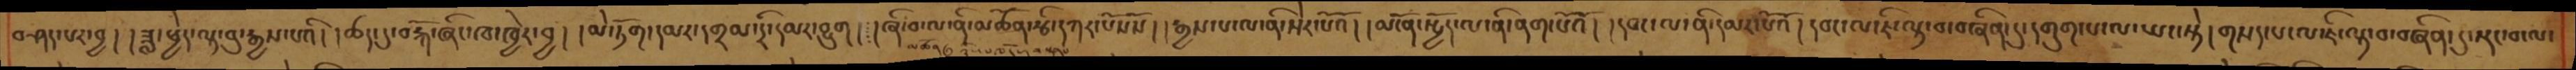བཤད་པར་བྱ། །ཟླ་ཕྱེད་ལྟ་བུ་རྒྱས་པའི། །ཚད་དུ་བརྐོ་ཞིང་ཁ་ཁྱེར་བྱ། །མེ་ཏོག་དམར་དགྲམ་དྲི་དམར་བྱུག། །ཞི་བ་ལ་ནི་མཚོན་རྩི་དཀར་པོསསོ། །རྒྱས་པ་ལ་ནི་སེར་པོའོ། །མངོན་སྤྱོད་ལ་ནི་ནག་པོའོ། །དབང་ལ་ནི་དམར་པོའོ། །དབང་ལ་ཇི་ལྟ་བ་བཞིན་དུ། །དགུག་པ་ལ་ཡང་སྟེ། །གསད་པ་ལ་ཇི་ལྟ་བ་བཞིན་དུ་སྡང་བ་ལ
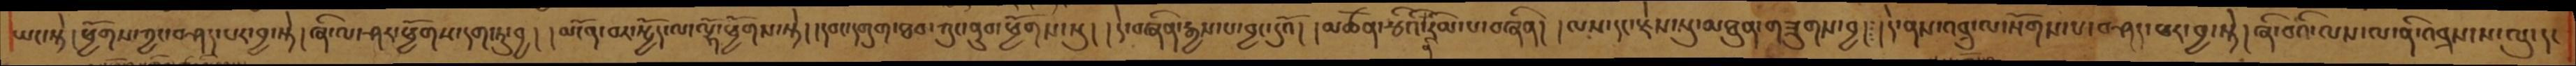ཡང་སྟེ། ཕྱོགས་ཀྱང་བཤད་པར་བྱ་སྟེ། ཞི་ལ་ཤར་ཕྱོགས་དག་ཏུ་བྱ། །མངོན་བར་སྤྱོད་ལ་ལྷོ་ཕྱོགས་སྟེ། །དབང་དགུག་ཐབ་ཀུང་ནུབ་ཕྱོགས་སུ། །དེ་བཞིན་རྒྱས་པ་བྱང་དུའོ། །མཚོན་རྩིའི་ནི་རིམ་པ་བཞིན། །ལས་དང་རྗེས་སུ་མཐུན་གཟུགས་བྱ། །དེ་ནས་འབྲུ་ལ་སོགས་པ་བཤད་པར་བྱ་སྟེ། ཞི་བའི་ལས་ལ་ནི་འབྲས་ས་ལུ་དང
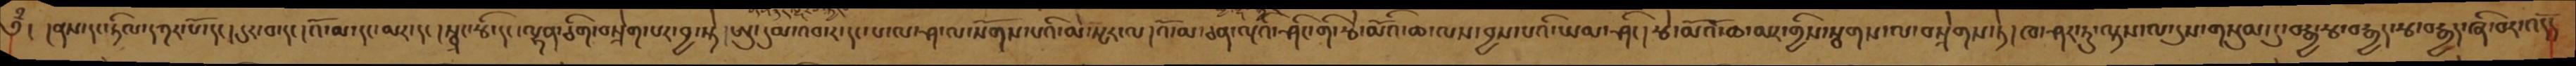༄ྃ། །ནས་དང་ཏིལ་དཀར་པོ་དང། དུར་བ་དང། འོ་མ་དང་མར་དང། སྦྲང་རྩི་དང་ལྷན་ཅིག་བསྲེག་པར་བྱ་སྟེ། ཨུ་དུམ་འབ་ར་དང་པ་ལ་ཤ་ལ་སོགས་པའི་མེ་སྤར་ལ།འོ་མ་ཅན་ལྔའི་ཤིང་གི་རྩེ་མོའི་ཆ་ལས་བྱས་པའི་ཡམ་ཤིང།རྩེ་མོའོ་ཆ་མར་གྱིས་སྦགས་ལ་བསྲེགས་ཏེ། ཁ་ཤར་ཏུ་ལྟས་ལ་དུས་གསུམ་དུ་བརྒྱ་རྩ་བརྒྱད་རྩ་བརྒྱད་ཞི་བར་འདོད
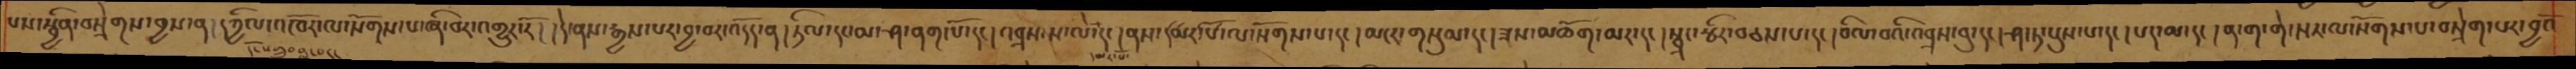པས་སྦྱིན་བསྲེགས་བྱས་ན། དཀྱིལ་འཁོར་ལ་སོགས་པ་ཞི་བར་འགྱུར་རོ། །དེ་ནས་རྒྱས་པར་བྱ་བར་འདོད་ན།ཏིལ་དང་མ་ཤ་ནག་པོ་དང། འབྲས་ས་ལེ་དམར་པོ་དང། ནས་དམར་པོ་ལ་སོགས་པ་དང། མངར་གསུམ་དང། ཟས་མཆོག་མར་དང། སྦྲང་རྩིར་བཅས་པ་དང། བིལ་བའི་འབྲས་བུ་དང། ཤ་ཏ་པུས་པ་དང། པད་མ་དང། ན་ག་གེ་སར་ལ་སོགས་པ་བསྲེག་པར་བྱའོ
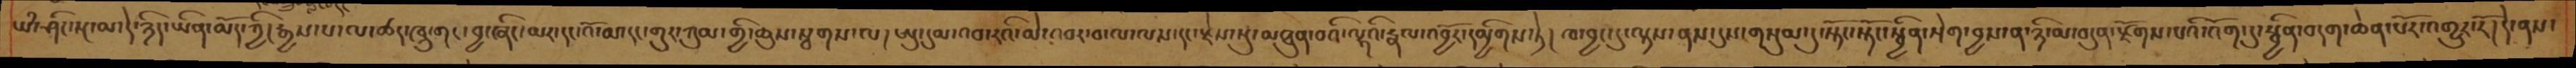ཡཾ་ཤིང་སྔ་མ་དེ་ཉིད་ཡིན་མོད་ཀྱི།རྒྱས་པ་ལ་ཚད་ཁྲུ་གང་བྱ་ཞིང་མར་དང་འོ་མ་དང་གུར་གུམ་གྱི་ཆུས་སྦགས་ལ། ཨུ་དུམ་འབ་རའི་མེ་འབར་བ་ལ་ལས་དང་རྗེས་སུ་མཐུན་བའི་ལྷའི་རྣལ་འབྱོར་དམྱིགས་ཏེ། ཁ་བྱང་དུ་ལྟས་ནས་དུས་གསུམ་དུ་སྟོང་སྟོང་སྦྱིན་སྲེག་བྱས་ན་ཉི་མ་བདུན་རྫོགས་པའི་འོག་དུ་སྦྱིན་བདག་ཆེན་པོར་འགྱུར་རོ། དེ་ནས
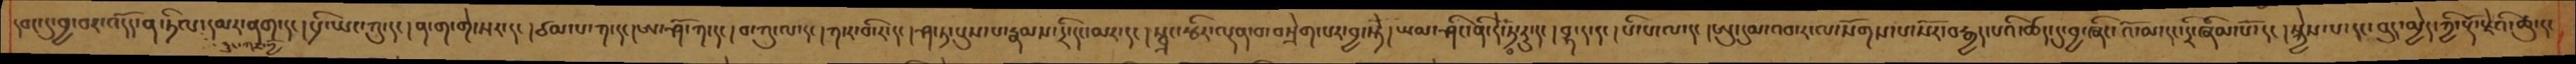དབང་དུ་བྱ་བར་འདོད་ན་ཏིལ་དམར་ནག་དང། པྲི་ཡང་ཀུ་དང།ན་ག་གེ་སར་དང།ཙམ་པ་ཀ་དང། ཨ་ཤོ་ཀ་དང།བ་ཀུ་ལ་དང།ཀ་ར་བི་ར་དང།ཤ་ཏ་པུས་པ་རྣམས་དྲི་དང་མར་དང། སྦྲང་རྩིར་ལྡན་བ་བསྲེག་པར་བྱ་སྟེ། ཡམ་ཤིང་ནི་དེ་བ་ཏ་རུ་དང། བྷ་ད་དང།པི་པ་ལ་དང།ཨུ་དུམ་འབ་ར་ལ་སོགས་པ་སོར་བརྒྱད་པའི་ཚད་དུ་བྱ་ཞིང་འོ་མ་དང་དྲི་ཞིམ་པོ་དང།སྐྱེས་པ་དང་བུ་མྱེད་ཀྱི་རྡོ་རྗེའི་ཆུ་དང
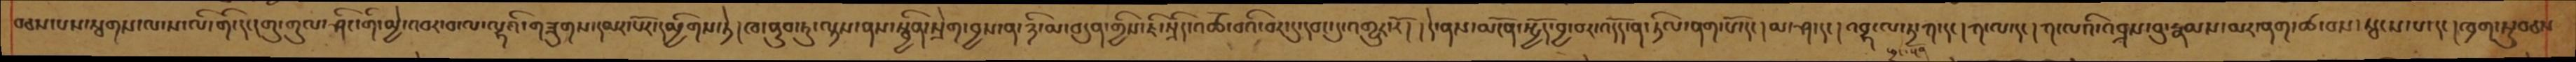བཅས་པས་སྦགས་ལ་ས་ལི་གི་དང།གུ་གུལ་ཤིང་གི་མྱེ་འབར་བ་ལ་ལྷའི་གཟུགས་དམར་པོར་དམྱིགས་ཏེ། ཁ་ནུབ་ཏུ་ལྟས་ནས་སྦྱིན་སྲེག་བྱས་ན་ཉི་མ་བདུན་གྱིས་ཇི་སྲིད་འཚོ་བའི་བར་དུ་དབང་དུ་འགྱུར་རོ། །དེ་ནས་མངོན་སྤྱོད་བྱ་བར་འདོད་ན་ཏིལ་ནག་པོ་དང། མ་ཤ་དང། འབྷ་ལ་ཏ་ཀ་དང།ཀ་ལ་དང། ཀ་ལིའི་འབྲས་བུ་རྣམས་མར་ནག་ཚ་བས་སྦངས་པ་དང། ཁྲག་ཏུ་བཅས
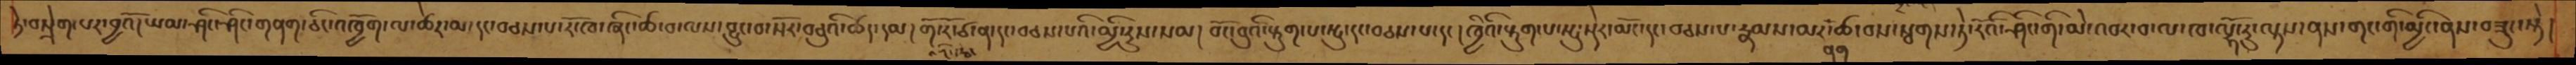ཏེ་བསྲེག་པར་བྱའོ། ཡམ་ཤིང་ཤིང་གནག་ཅིང་འཁྱོག་ལ་ཚེར་མ་དང་བཅས་པ་རོ་ཁ་ཞིང་ཚ་བ་ལས་བྱུང་བ་སོར་བཅུའི་ཚད་དམ། གོ་ར་ཙ་ན་དང་བཅས་པའི་མྱི་རུས་སམ། བོང་བུའི་སྟུག་པ་སྤུ་དང་བཅས་པ་དང། ཁྱིའི་སྟུག་པ་སྤུ་སྡེར་མང་དང་བཅས་པ་རྣམས་མར་ནག་ཚ་བས་སྦགས་ཏེ་རོའི་ཤིང་གི་མེ་འབར་བ་ལ་ཁ་ལྷོ་རུ་ལྟས་ནས་གང་གི་མྱིང་ནས་བཟུང་སྟེ།
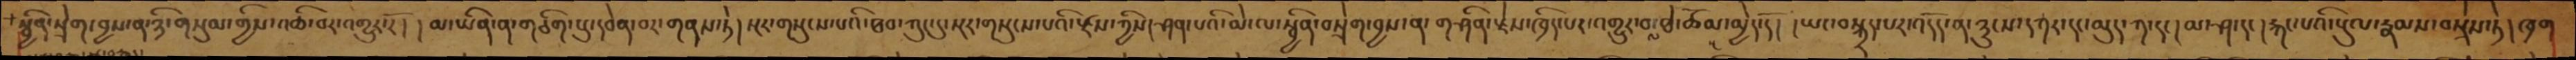སྦྱིན་སྲེག་བྱས་ན་ཉི་གསུམ་གྱིས་འཆི་བར་འགྱུར་རོ། །མ་ཡིན་ན་གཅིག་པུ་དབེན་བར་གནས་ཏེ། སྔར་གསུངས་པའི་ཐབ་ཀུང་དུ་སྔར་གསུངས་པའི་རྫས་ཀྱིས།ཤན་པའི་མེ་ལ་སྦྱིན་བསྲེག་བྱས་ན་གཤིན་རྗེས་ཁྲིད་པར་འགྱུར་བ་ལ་ཐེ་ཚོམ་མྱེད་དོ། །ཡང་བསྐྲད་པར་འདོད་ན་ཉུངས་དཀར་དང་མུད་ཀ་དང། མ་ཤ་དང། རྐང་པའི་སུལ་རྣམས་བསྲེས་ཏེ། ཁྲག
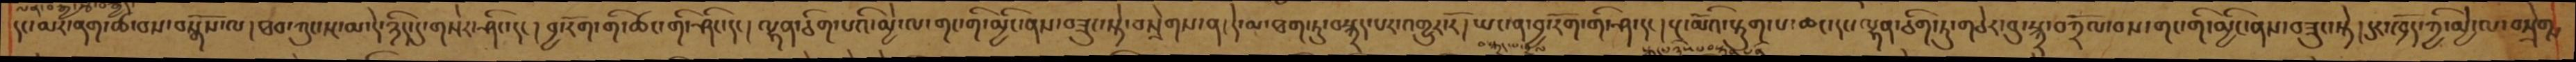དང་མར་ནག་ཆེ་བས་བསྒོས་ལ། ཐབ་ཀུང་སྔ་མ་དེ་ཉིད་དུ་གསེར་ཤིང་དང། བྱ་རོག་གི་ཚང་གི་ཤིང་དང། ལྷན་ཅིག་པའི་མྱེ་ལ་གང་གི་མྱིང་ནས་བཟུང་སྟེ་བསྲེགས་ན། དེ་མ་ཐག་ཏུ་བསྐྲད་པར་འགྱུར་རོ། ཡང་ན་བྱ་རོག་གི་ཤ་དང། སྔ་མོའི་རྟུག་པ་ཆང་དང་ལྷན་ཅིག་ཏུ་གཅེར་བུ་སྐྲ་བཀྲོལ་བས་གང་གི་མྱིང་ནས་བཟུང་སྟེ། དུར་ཁྲོད་ཀྱི་མྱེ་ལ་བསྲེགས
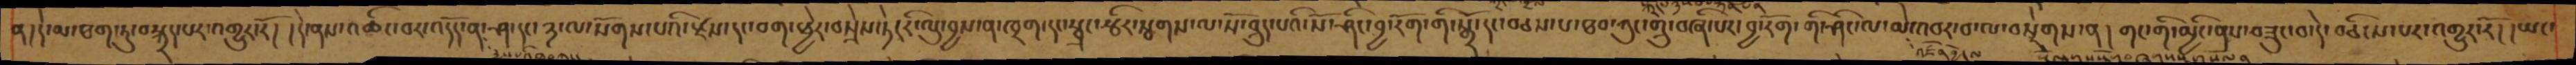ན། དེ་མ་ཐག་ཏུ་བསྐྲད་པར་འགྱུར་རོ། །དེ་ནས་འཆིང་བར་འདོད་ན་ཤ་དང་ཉ་ལ་སོགས་པའི་རྫས་དང་བག་ཕྱེར་བསྲེས་ཏེ། རི་ལུ་བྱས་ན་ཁྲག་དང་སྦྲང་རྩིར་རྩགས་ལ་སོ་བླུད་པའི་སོ་ཤིང་བྱ་རོག་གི་སྒྲོ་དང་བཅས་པ་ཐབ་ཀུང་གྲུ་བཞི་པར་བྱ་རོག་གི་ཤིང་ལ་མེ་འབར་བ་ལ་བསྲེགས་ན།  གང་གི་མྱིང་ནས་བཟུང་བ་དེ་བཅིངས་པར་འགྱུར་རོ། །ཡང་
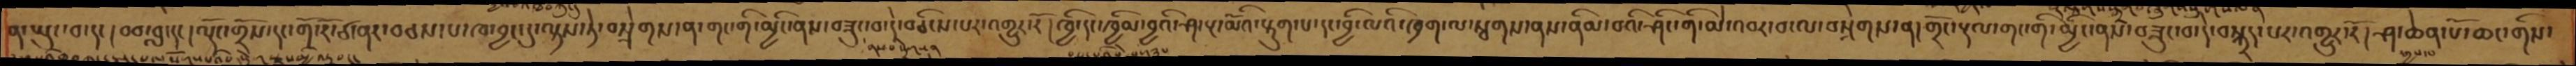ན་ཡུང་བ་དང། བབ་བླ་དང། ལྡོང་གྲོས་དང་གོ་རོ་ཙ་ནར་བཅས་པ་ཁ་བྱང་དུ་ལྟས་ཏེ་བསྲེགས་ན་གང་གི་མྱིང་ནས་བཟུང་བ་དེ་བཅིངས་པར་འགྱུར་རོ། ཁྱི་དང་ཁྱིམ་བྱའི་ཤ་སྔ་མོའི་སྡུག་པ་དང་བྱི་ལའི་ཁྲག་ལ་རྩགས་ནས་ནིམ་བའི་ཤིང་གི་མེ་འབར་བ་ལ་བསྲེགས་ན། གྲོང་རྡལ་གང་གི་མྱིང་ནས་བཟུང་བ་དེ་བསྐྲད་པར་འགྱུར་རོ། ཤ་ཆེན་པོ་ཆང་གིས་
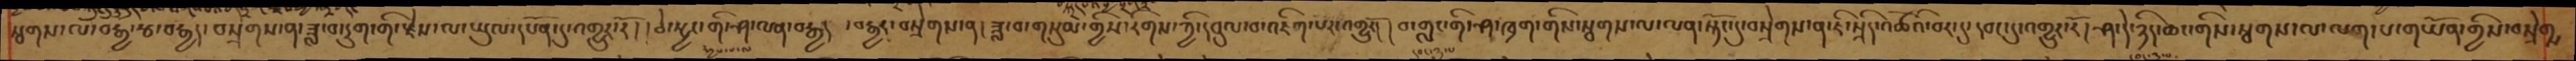སྦགས་ལ་བརྒྱ་རྩ་བརྒྱད་བསྲེགས་ན་ཟླ་བ་དྲུག་གི་རྗེས་ལ་ཡུལ་དཔོན་དུ་འགྱུར་རོ། །ཅེ་སྦྱང་གི་ཤ་ལན་བརྒྱད ་བརྒྱད་བསྲེགས་ན། ཟླ་བ་གསུམ་གྱིས་རིགས་ཀྱི་དབུལ་བ་འཇིག་པོར་འགྱུརོ། །བ་གླང་གི་ཤ་ཁྲག་གིས་སྦགས་ལ་ལན་སྟོང་དུ་བསྲེགས་ན་ཇི་སྲིད་འཚོའི་བར་དུ་དབང་དུ་འགྱུར་རོ། ཤ་དེ་ཉིད་ཆང་གིས་སྦགས་ལ་ལག་པ་གཡོན་གྱིས་བསྲེགས
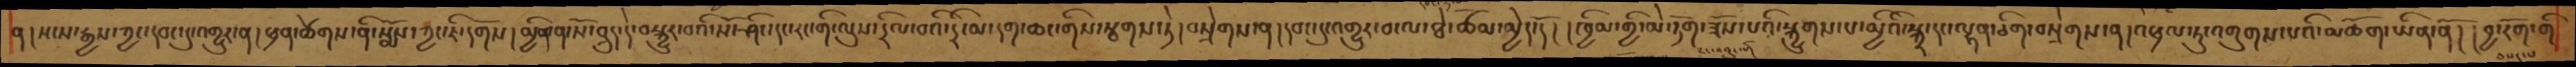ན། སངས་རྒྱས་ཀྱང་དབང་དུ་འགྱུར་ན། ཕྲན་ཚེགས་ནི་སྨོས་ཀྱང་ཇི་དགོས། མྱིན་ན་སོ་བླུད་དེ་བསྐྱུར་བའི་སོ་ཤིང་དང་རང་གི་ལུས་དྲིལ་བའི་དྲི་མ་དག་ཆང་གིས་སྦགས་ཏེ། བསྲེགས་ན།དབང་དུ་འགྱུར་བ་ལ་ཐེ་ཚོམ་མྱེད་དོ། །ཁྱིམ་གྱི་མེ་ཏོག་ཟོས་པའི་སྐྱུགས་པ་མྱིའི་སྐྲ་དང་ལྷན་ཅིག་བསྲེགས་ན།འཕྲལ་ཏུ་འགུགས་པའི་མཆོག་ཡིན་ནོ། །བྱ་རོག་གི་
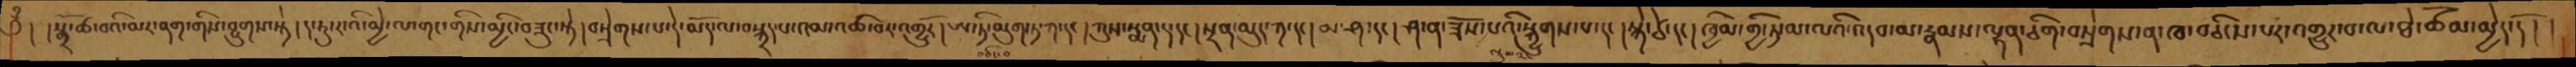༄ྃ། །སྒྲོ་ཚ་བའི་མར་ནག་གིས་བྱུགས་སྟེ། ད་ཏུ་ར་འི་མྱེ་ལ་གང་གིས་མྱིང་བཟུང་སྟེ། བསྲེགས་པ་དེ་མོད་ལ་བསྐྲད་པ་འམ་འཆི་བར་འགྱུརོ། ཨ་ཏི་མུག་ཏ་ཀ་དང། ཀུས་སྨན་ད་དང། པྲན་མུད་ཀ་དང། མ་ཤ་དང། ཤ་ན་ཟོས་པའི་སྐྱུགས་པ་དང། སྐེ་ཙེ་དང། ཁྱིམ་གྱི་ཏ་མ་ལའི་འདབ་མ་རྣམས་ལྷན་ཅིག་བསྲེགས་ན་ཁ་བཅིངས་པར་འགྱུར་བ་ལ་ཐེ་ཚོམ་མྱེད་དོ། །
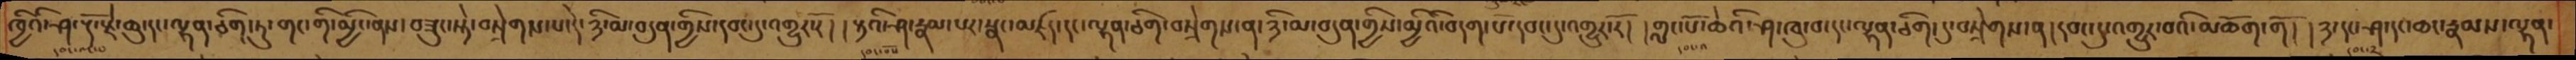ཁྱིའི་ཤ་རྡོ་རྗེ་ཆུ་དང་ལྷན་ཅིག་ཏུ་གང་གི་མྱིང་ནས་བཟུང་སྟེ་བསྲེགས་པ་དེ་ཉི་མ་བདུན་གྱིས་དབང་དུ་འགྱུར་རོ། །རྟའི་ཤ་རྣམ་པར་སྣང་མཛད་དང་ལྷན་ཅིག་བསྲེགས་ན་ཉི་མ་བདུན་གྱིས་མྱིའི་བདག་པོ་དབང་དུ་འགྱུར་རོ། །གླང་པོ་ཆེའི་ཤ་ཁུ་བ་དང་ལྷན་ཅིག་དུ་བསྲེགས་ན། དབང་དུ་འགྱུར་བའི་མཆོག་གོ། །ཉ་དང་ཤ་དང་ཆང་རྣམས་ལྷན་
